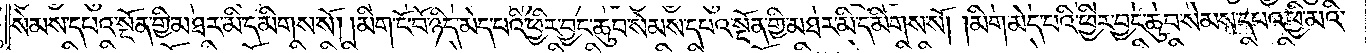སེམས་དཔའ་སྔོན་གྱི་མཐར་མི་དམིགས་སོ། །མིག་ངོ་བོ་ཉིད་མེད་པའི་ཕྱིར་བྱང་ཆུབ་སེམས་དཔའ་སྔོན་གྱི་མཐར་མི་དམིགས་སོ། །མིག་མེད་པའི་ཕྱིར་བྱང་ཆུབ་སེམས་དཔའ་ཕྱི་མའི་
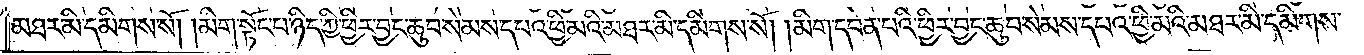མཐར་མི་དམིགས་སོ། །མིག་སྟོང་པ་ཉིད་ཀྱི་ཕྱིར་བྱང་ཆུབ་སེམས་དཔའ་ཕྱི་མའི་མཐར་མི་དམིགས་སོ། །མིག་དབེན་པའི་ཕྱིར་བྱང་ཆུབ་སེམས་དཔའ་ཕྱི་མའི་མཐར་མི་དམིགས་
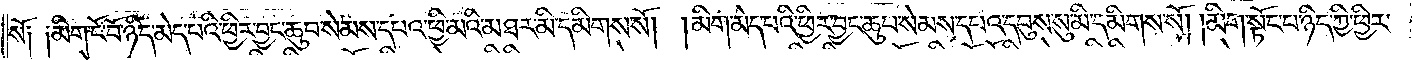སོ། །མིག་ངོ་བོ་ཉིད་མེད་པའི་ཕྱིར་བྱང་ཆུབ་སེམས་དཔའ་ཕྱི་མའི་མཐར་མི་དམིགས་སོ། །མིག་མེད་པའི་ཕྱིར་བྱང་ཆུབ་སེམས་དཔའ་དབུས་སུ་མི་དམིགས་སོ། །མིག་སྟོང་པ་ཉིད་ཀྱི་ཕྱིར་
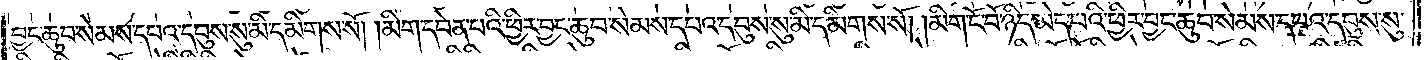བྱང་ཆུབ་སེམས་དཔའ་དབུས་སུ་མི་དམིགས་སོ། །མིག་དབེན་པའི་ཕྱིར་བྱང་ཆུབ་སེམས་དཔའ་དབུས་སུ་མི་དམིགས་སོ། །མིག་ངོ་བོ་ཉིད་མེད་པའི་ཕྱིར་བྱང་ཆུབ་སེམས་དཔའ་དབུས་སུ་
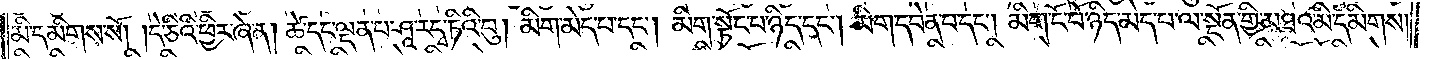མི་དམིགས་སོ། །དེ་ཅིའི་ཕྱིར་ཞེ་ན། ཚེ་དང་ལྡན་པ་ཤཱ་རདྭ་ཏིའི་བུ། མིག་མེད་པ་དང༌། མིག་སྟོང་པ་ཉིད་དང༌། མིག་དབེན་པ་དང༌། མིག་ངོ་བོ་ཉིད་མེད་པ་ལ་སྔོན་གྱི་མཐའ་མི་དམིགས།
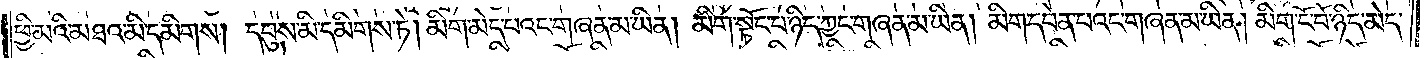ཕྱི་མའི་མཐའ་མི་དམིགས། དབུས་མི་དམིགས་ཏེ། མིག་མེད་པའང་གཞན་མ་ཡིན། མིག་སྟོང་པ་ཉིད་ཀྱང་གཞན་མ་ཡིན། མིག་དབེན་པའང་གཞན་མ་ཡིན། མིག་ངོ་བོ་ཉིད་མེད་
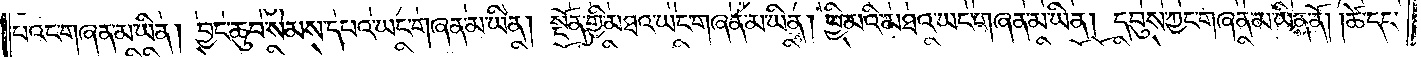པའང་གཞན་མ་ཡིན། བྱང་ཆུབ་སེམས་དཔའ་ཡང་གཞན་མ་ཡིན། སྔོན་གྱི་མཐའ་ཡང་གཞན་མ་ཡིན། ཕྱི་མའི་མཐའ་ཡང་གཞན་མ་ཡིན། དབུས་ཀྱང་གཞན་མ་ཡིན་ནོ། །ཚེ་དང་
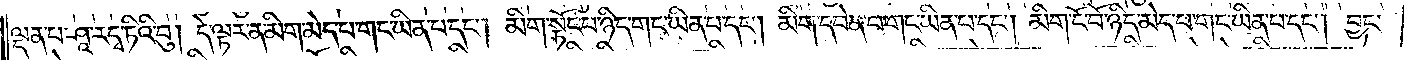ལྡན་པ་ཤཱ་རདྭ་ཏིའི་བུ། དེ་ལྟར་ན་མིག་མེད་པ་གང་ཡིན་པ་དང༌། མིག་སྟོང་པ་ཉིད་གང་ཡིན་པ་དང༌། མིག་དབེན་པ་གང་ཡིན་པ་དང༌། མིག་ངོ་བོ་ཉིད་མེད་པ་གང་ཡིན་པ་དང༌། བྱང་
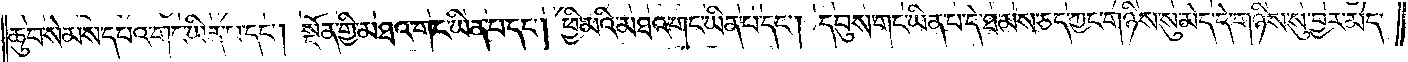ཆུབ་སེམས་དཔའ་གང་ཡིན་པ་དང༌། སྔོན་གྱི་མཐའ་གང་ཡིན་པ་དང༌། ཕྱི་མའི་མཐའ་གང་ཡིན་པ་དང༌། དབུས་གང་ཡིན་པ་དེ་ཐམས་ཅད་ཀྱང་གཉིས་སུ་མེད་དེ་གཉིས་སུ་བྱར་མེད་
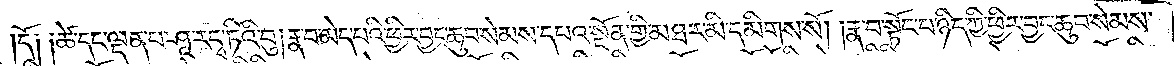དོ༑ ༑ཚེ་དང་ལྡན་པ་ཤཱ་རདྭ་ཏིའི་བུ། རྣ་བ་མེད་པའི་ཕྱིར་བྱང་ཆུབ་སེམས་དཔའ་སྔོན་གྱི་མཐར་མི་དམིགས་སོ། རྣ་བ་སྟོང་པ་ཉིད་ཀྱི་ཕྱིར་བྱང་ཆུབ་སེམས་
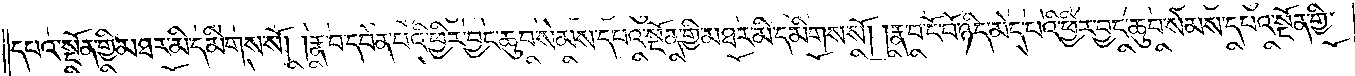དཔའ་སྔོན་གྱི་མཐར་མི་དམིགས་སོ། །རྣ་བ་དབེན་པའི་ཕྱིར་བྱང་ཆུབ་སེམས་དཔའ་སྔོན་གྱི་མཐར་མི་དམིགས་སོ། །རྣ་བ་ངོ་བོ་ཉིད་མེད་པའི་ཕྱིར་བྱང་ཆུབ་སེམས་དཔའ་སྔོན་གྱི་
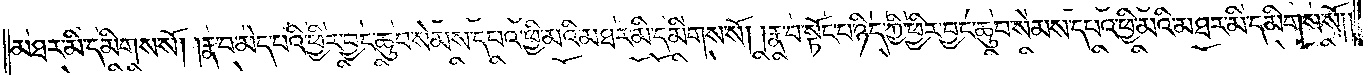མཐར་མི་དམིགས་སོ། །རྣ་བ་མེད་པའི་ཕྱིར་བྱང་ཆུབ་སེམས་དཔའ་ཕྱི་མའི་མཐར་མི་དམིགས་སོ། །རྣ་བ་སྟོང་པ་ཉིད་ཀྱི་ཕྱིར་བྱང་ཆུབ་སེམས་དཔའ་ཕྱི་མའི་མཐར་མི་དམིགས་སོ། །
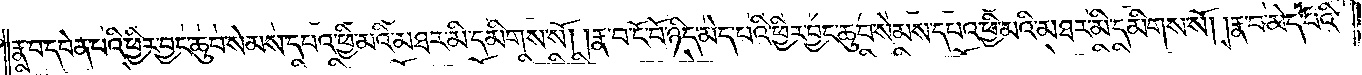རྣ་བ་དབེན་པའི་ཕྱིར་བྱང་ཆུབ་སེམས་དཔའ་ཕྱི་མའི་མཐར་མི་དམིགས་སོ། །རྣ་བ་ངོ་བོ་ཉིད་མེད་པའི་ཕྱིར་བྱང་ཆུབ་སེམས་དཔའ་ཕྱི་མའི་མཐར་མི་དམིགས་སོ། །རྣ་བ་མེད་པའི་
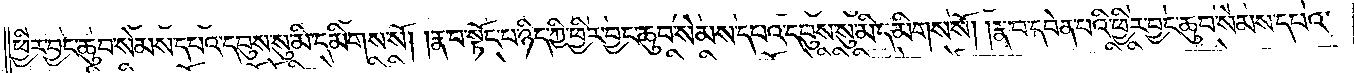ཕྱིར་བྱང་ཆུབ་སེམས་དཔའ་དབུས་སུ་མི་དམིགས་སོ། །རྣ་བ་སྟོང་པ་ཉིད་ཀྱི་ཕྱིར་བྱང་ཆུབ་སེམས་དཔའ་དབུས་སུ་མི་དམིགས་སོ། །རྣ་བ་དབེན་པའི་ཕྱིར་བྱང་ཆུབ་སེམས་དཔའ་
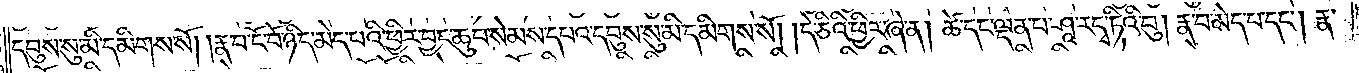དབུས་སུ་མི་དམིགས་སོ། །རྣ་བ་ངོ་བོ་ཉིད་མེད་པའི་ཕྱིར་བྱང་ཆུབ་སེམས་དཔའ་དབུས་སུ་མི་དམིགས་སོ། །དེ་ཅིའི་ཕྱིར་ཞེ་ན། ཚེ་དང་ལྡན་པ་ཤཱ་རདྭ་ཏིའི་བུ། རྣ་བ་མེད་པ་དང༌། རྣ་
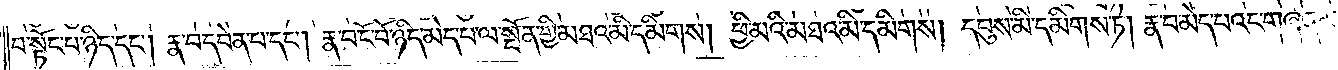བ་སྟོང་པ་ཉིད་དང༌། རྣ་བ་དབེན་པ་དང༌། རྣ་བ་ངོ་བོ་ཉིད་མེད་པ་ལ་སྔོན་གྱི་མཐའ་མི་དམིགས། ཕྱི་མའི་མཐའ་མི་དམིགས། དབུས་མི་དམིགས་ཏེ། རྣ་བ་མེད་པའང་གཞན་མ་
